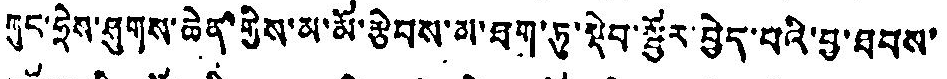ཀུང་ཧྲེས་ཤུགས་ཆེན་གྱིས་མ་མོ་རྩེབས་མ་ཐག་ཏུ་སྡེབ་སྦྱོར་བྱེད་པའི་བྱ་ཐབས་
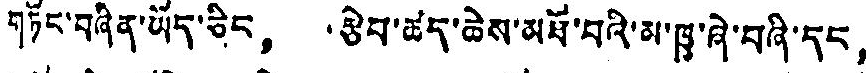གཏོང་བཞིན་ཡོད་ཅིང， རྩེབ་ཚད་ཆེས་མཐོ་བའི་མ་ཁྱུ་ཞེ་བཞི་དང，
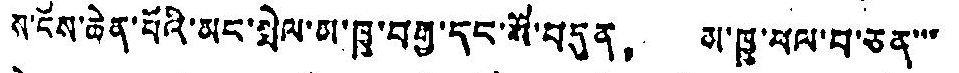ས་ངོས་ཆེན་པོའི་མང་སྤེལ་མ་ཁྱུ་བརྒྱ་དང་སོ་བདུན， མ་ཁྱུ་ཕལ་བ་ཅན་་་
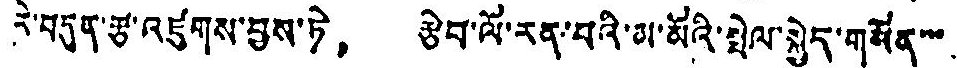རེ་བདུན་རྩ་འཛུགས་བྱས་ཏེ， རྩེབ་ལོ་རན་པའི་མ་མོའི་སྤེལ་སྐྱེད་གསོན་་་
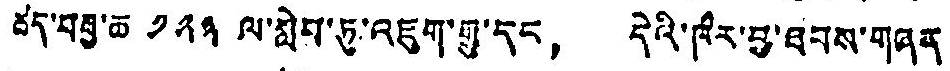ཚད་བརྒྱ་ཆ ༡༢༣ ལ་སླེབ་ཏུ་འཇུག་གྱུ་དང， དེའི་ཁར་བྱ་ཐབས་གཞན་
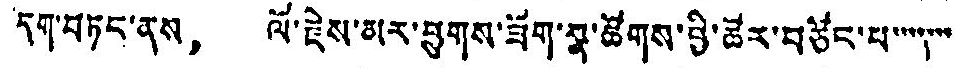དག་བཏང་ནས， ལོ་རྗེས་མར་ཕྱུགས་ཟོག་སྣ་ཚོགས་བྱི་ཚོར་བཙོང་པ་་་་་་་
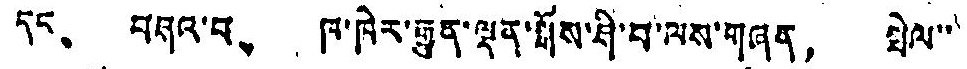དང、 བཤའ་བ、 ཁ་ཁེར་རྒྱུན་ལྡན་སྒོས་ཤི་བ་ལས་གཞན， སྤེལ་་་
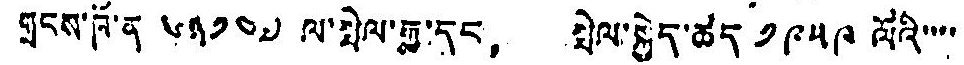གྲངས་ཁོ་ན ༦༣༡༤༧ ལ་སྤེལ་རྒྱུ་དང， སྤེལ་སྐྱེད་ཚད ༡༩༥༩ ལོའི་་་་
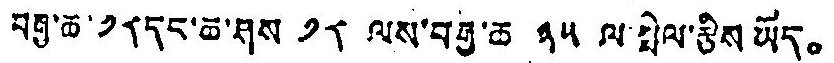བརྒྱ་ཆ་ ༡༨དང་ཆ་ཤས ༡༨ ལས་བརྒྱ་ཆ ༣༥ ལ་སྤེལ་རྩིས ཡོད。
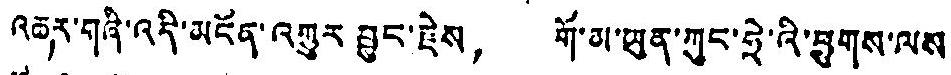འཆར་གཞི་འདི་མངོན་འགྱུར བྱུང་རྗེས， གོ་མ་ཡུན་ཀུང་ཧྲེ་འི་ཕྱུགས་ལས
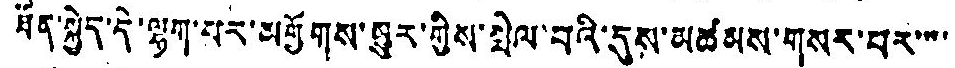ཐོན་སྐྱེད་དེ་ལྷག་པར་མགྱོགས་མྱུར་ཀྱིས་སྤེལ་བའི་དུས་མཚམས་གསར་བར་་་་
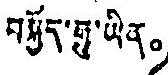བསྐྱོད་རྒྱུ་ཡིན。
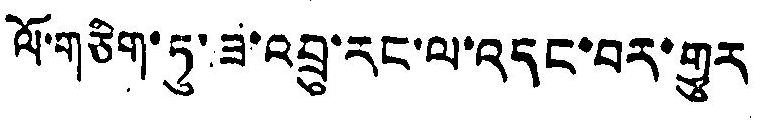ལོ་གཅིག་ཏུ་ཟ་འབྲུ་རང་ལ་འདང་བར་གྱུར
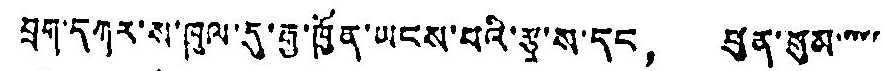བྲག་དཀར་ས་ཁུལ་དུ་རྒྱ་ཁྱོན་ཡངས་པའི་རྩྭ་ས་དང， ཕུན་སུམ་་་་་
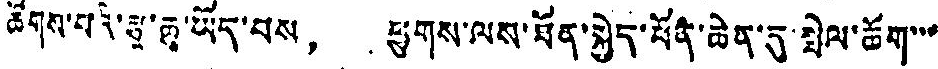ཚོགས་པའི་རྩུ་ཆུ་ཡོད་པས， ཕྱུགས་ལས་ཐོན་སྐྱེད་པོན་ཆེན་དུ་སྤེལ་ཆོག་་་
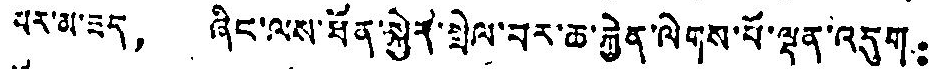པར་མ་ཟད， ཞིང་ལས་ཐོན་སྐྱེར་སྤེལ་བར་ཆ་རྐྱེན་ལེགས་པོ་ལྡན་འདུག：
